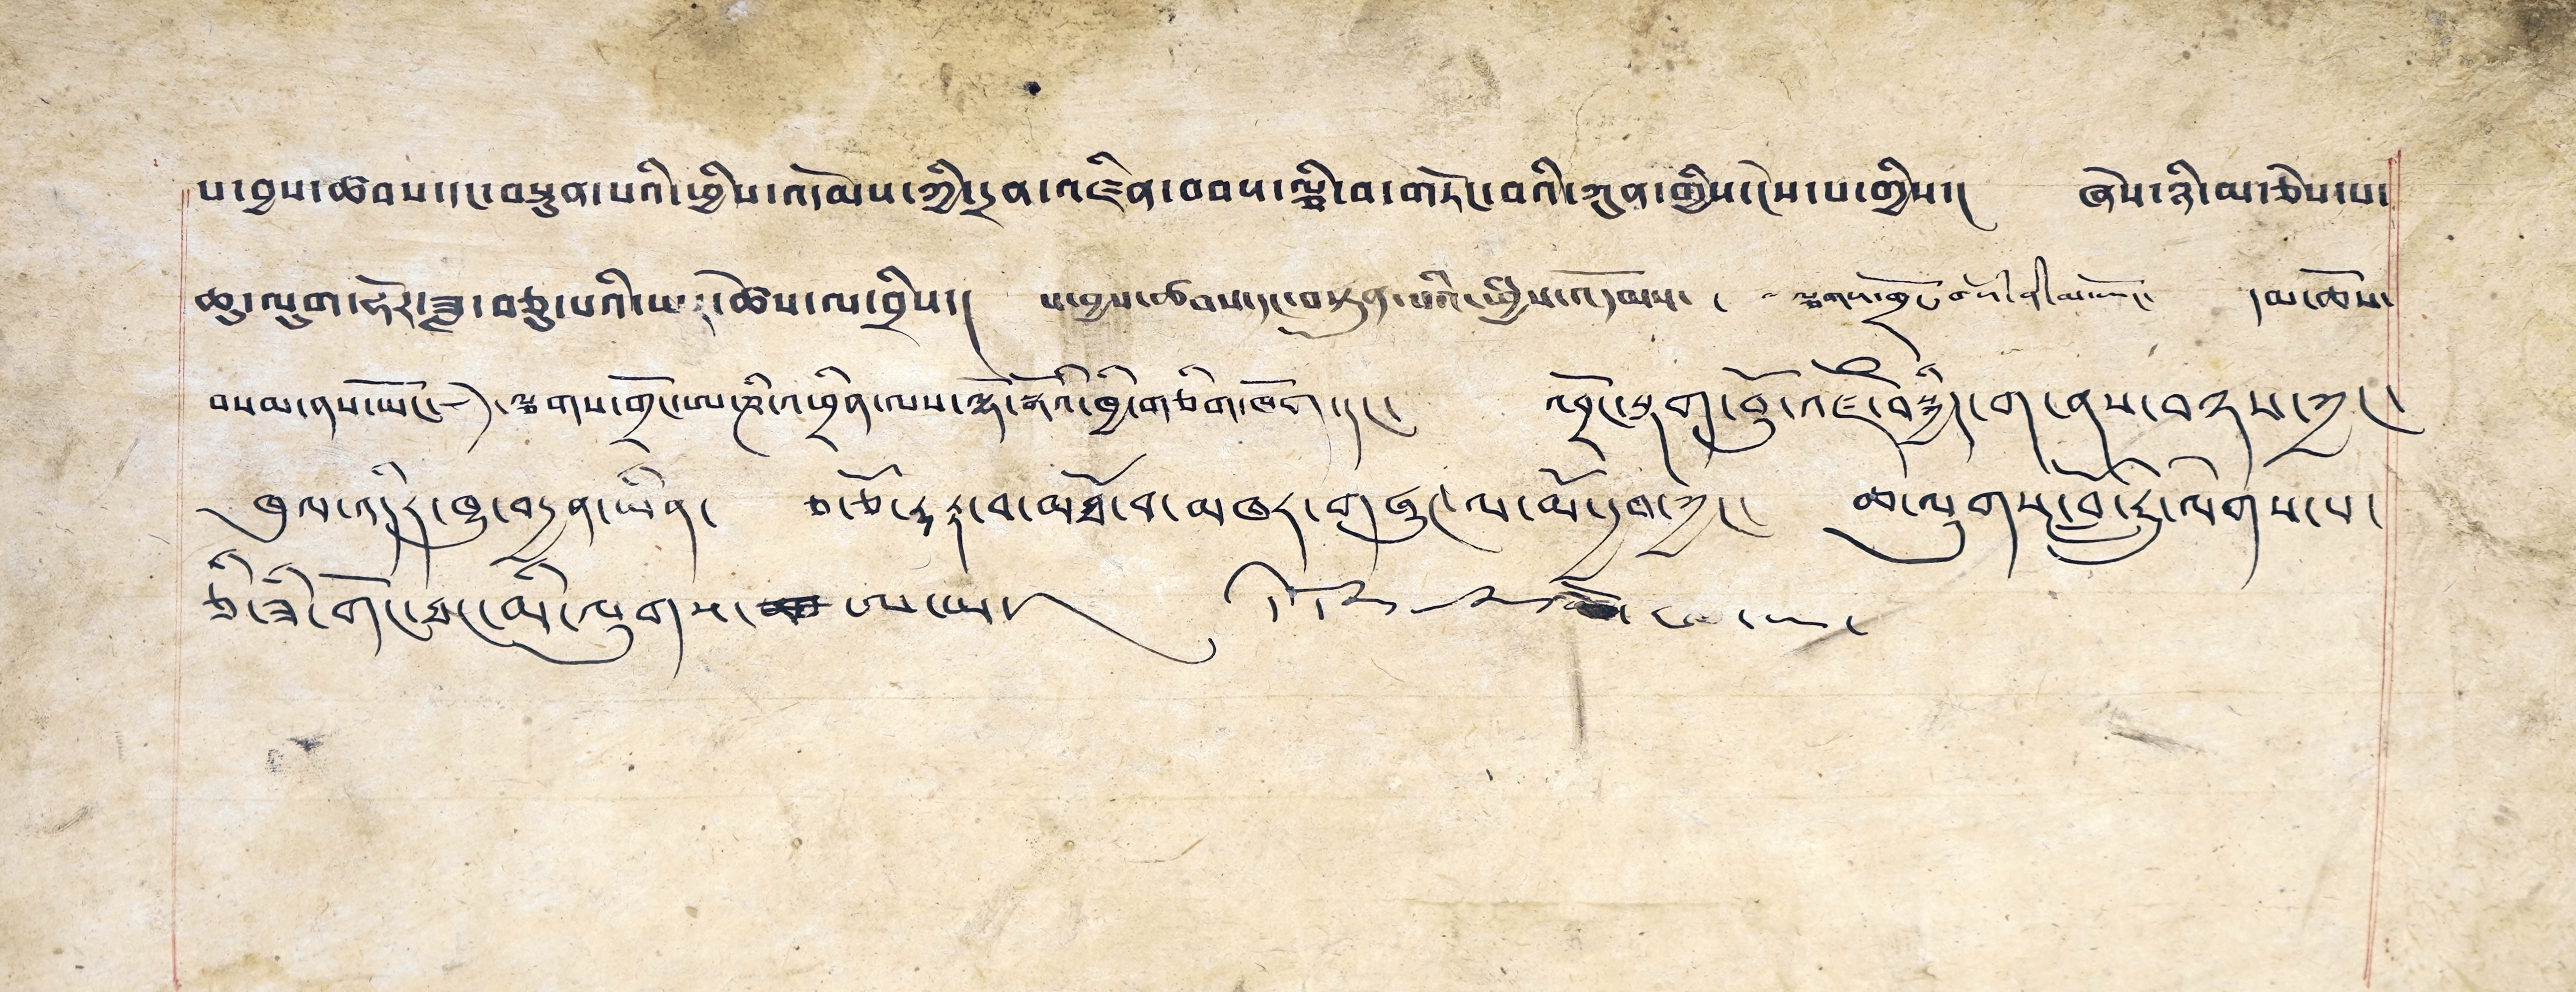པ་བྱས་ཚབས་དང་བསྟུན་པའི་ཕྱིས་འདོམས་ཀྱི་དྲན་འཛིན་བབས་ལྕི་བ་གཏོང་བའི་ཀུན་གྱིས་ངེས་པ་གྱིས་། ཞེས་ཉི་མ་ཅེས་པ་
ཆུ་ལུག་ཧོར་ཟླ་བཅུ་པའི་ཡར་ཚེས་ལ་བྲིས། པ་བྱས་ཚབས་དང་བསྟུན་པའི་ཕྱིས་འདོམས། ལྕགས་གྲོང་བསམ་ནི་མ་ཡོང་། དམ་ཆོས་
བསམ་ནས་ཡོང་། ལྕགས་གྲོང་ཨ་ཊི་ཕྲིན་ལས་ལྷོ་སྒོའི་ཁྱི་གཅིག་ཁོག་དང་། འབྲོང་སྟག་བོུ་འཛོཾས་བསྐྱིད་ག་ནས་བལྟས་ཀྱང་
ཁུལ་འདིར་ཁྱུ་བརྒྱན་ཡིན། ཅ་ཅོ་རྡརྟ་བ་མཐོ་བ་མཁར་གཞུང་ལ་མོ་དྱབ་ཀྱང་། ཆ་ལུགསང་བློ་ཏགྱུ་ལེགས་པ་
ཅི་ཟི་གོང་ཐང་མི་ལུགས་ཨ་ཡ། དེ་དོན་་་་་་་་་་ཨ་ཡ།
